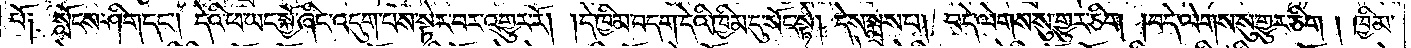པོ༑ སློངས་ཤིག་དང༌། དེའི་ཕ་ཡང་སྐྱོ་ཞིང་འདུག་པས་སྟེར་བར་འགྱུར་རོ། །དེ་ཁྱིམ་བདག་དེའི་ཁྱིམ་དུ་སོང་སྟེ། དེས་སྨྲས་པ། བདེ་ལེགས་སུ་གྱུར་ཅིག །བདེ་ལེགས་སུ་གྱུར་ཅིག །ཁྱིམ་
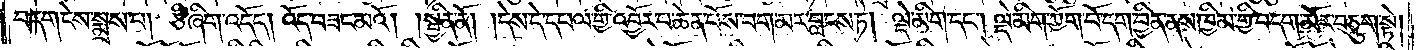བདག་དེས་སྨྲས་པ། ཅི་ཞིག་འདོད། འོད་བཟང་མའོ། །སྦྱིན་ནོ། །དེས་དེ་དཔལ་གྱི་འབྱོར་པ་ཆེན་པོས་བག་མར་བླངས་ཏེ། ལྡེ་མིག་དང༌། ལྡེ་མིག་ཀྱོག་པོ་དག་བྱིན་ནས་ཁྱིམ་གྱི་བདག་མོར་བཅུག་སྟེ།
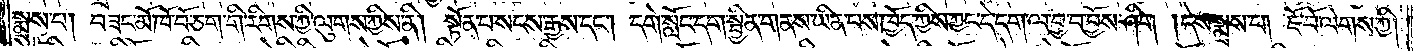སྨྲས་པ། བཟང་མོ་ཁོ་བོ་ཅག་གི་རིགས་ཀྱི་ལུགས་ཀྱིས་ནི། སྟོན་པ་སངས་རྒྱས་དང༌། དགེ་སློང་དག་སྦྱིན་གནས་ཡིན་པས་ཁྱོད་ཀྱིས་ཀྱང་དེ་དག་ལ་བྱ་བ་བྱོས་ཤིག །དེས་སྨྲས་པ། ཇོ་བོ་ལེགས་ཀྱི།
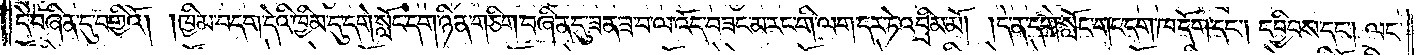དེ་བཞིན་དུ་བགྱིའོ། །ཁྱིམ་བདག་དེའི་ཁྱིམ་དུ་དགེ་སློང་དག་ཉིན་གཅིག་བཞིན་དུ་ཟན་ཟ་བ་ལ་འོད་བཟང་མ་རང་གི་ལག་དར་ཏེ་འབྲིམ་མོ། །དེ་ན་དགེ་སློང་གང་དག་ཁ་དོག་དང༌། དབྱིབས་དང༌། ལང་
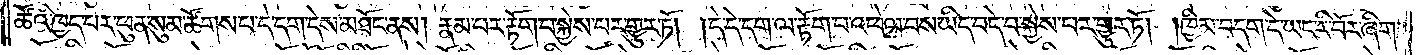ཚོའི་ཁྱད་པར་ཕུན་སུམ་ཚོགས་པ་དེ་དག་དེས་མཐོང་ནས། རྣམ་པར་རྟོག་པ་སྐྱེས་པར་གྱུར་ཏོ། །དེ་དེ་དག་ལ་རྟོག་པ་འཕེལ་བས་ཡིད་བདེ་བ་སྐྱེས་པར་གྱུར་ཏོ། །ཁྱིམ་བདག་དེ་ཡང་རི་བོར་ཞིག་
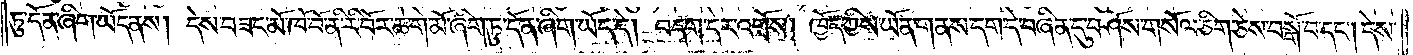ཏུ་དོན་ཞིག་ཡོད་ནས། དེས་བཟང་མོ་ཁོ་བོ་ནི་རི་བོར་ཆེ་གེ་མོ་ཞིག་ཏུ་དོན་ཞིག་ཡོད་དེ། བདག་དེར་འགྲོས། ཁྱོད་ཀྱིས་ཡོན་གནས་དག་དེ་བཞིན་དུ་བཤོས་གསོལ་ཅིག་ཅེས་བསྒོ་བ་དང༌། དེས་
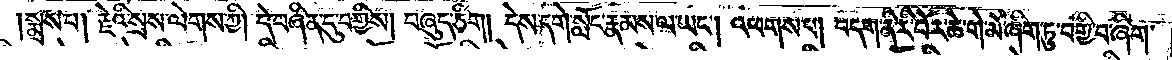སྨྲས་པ། རྗེའི་སྲས་ལེགས་ཀྱི། དེ་བཞིན་དུ་བགྱིས། བཞུད་ཅིག །དེས་དགེ་སློང་རྣམས་ལ་ཡང༌། འཕགས་པ། བདག་ནི་རི་བོར་ཆེ་གེ་མོ་ཞིག་ཏུ་བགྱི་བ་ཞིག་
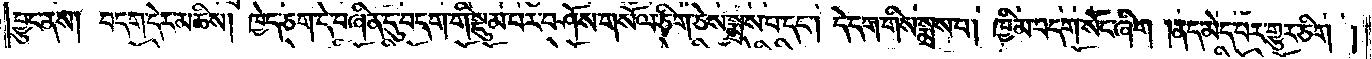བྱུང་ནས། བདག་དེར་མཆིས། ཁྱེད་ཅག་དེ་བཞིན་དུ་བདག་གི་སྡུམ་པར་བཤོས་གསོལ་ཅིག་ཅེས་སྨྲས་པ་དང༌། དེ་དག་གིས་སྨྲས་པ། ཁྱིམ་བདག་སོང་ཞིག །ནད་མེད་པར་གྱུར་ཅིག །
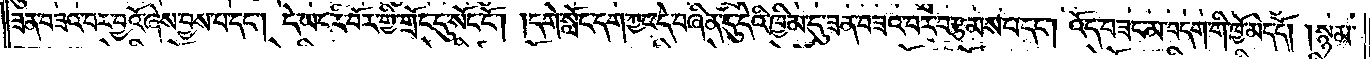ཟན་བཟའ་བར་བྱའོ་ཞེས་བྱས་པ་དང༌། དེ་ཡང་རི་བོར་གྱི་གྲོང་དུ་སོང་ངོ༌། །དགེ་སློང་དག་ཀྱང་དེ་བཞིན་དུ་དེའི་ཁྱིམ་དུ་ཟན་བཟའ་བར་བརྩམས་པ་དང༌། འོད་བཟང་མ་བདག་གི་ཁྱོ་མེད་དོ། །སྙམ་
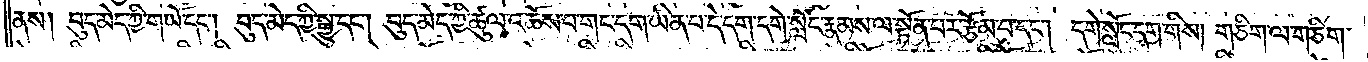ནས། བུད་མེད་ཀྱི་གཡོ་དང༌། བུད་མེད་ཀྱི་སྒྱུ་དང༌། བུད་མེད་ཀྱི་ཚུལ་འཆོས་པ་གང་དག་ཡིན་པ་དེ་དག་དགེ་སློང་རྣམས་ལ་སྟོན་པར་རྩོམ་པ་དང༌། དགེ་སློང་དག་གིས། གཅིག་ལ་གཅིག་
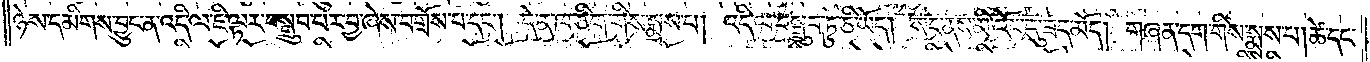ཉེས་དམིགས་བྱུང་ན་འདི་ལ་ཇི་ལྟར་བསྒྲུབ་པར་བྱ་ཞེས་བགྲོས་པ་དང༌། དེ་ན་ཁ་ཅིག་གིས་སྨྲས་པ། འདི་ལ་བསྒྲུབ་ཏུ་ཅི་ཡོད། སང་ནས་མི་འོང་དུ་ཟད་མོད། གཞན་དག་གིས་སྨྲས་པ། ཚེ་དང་
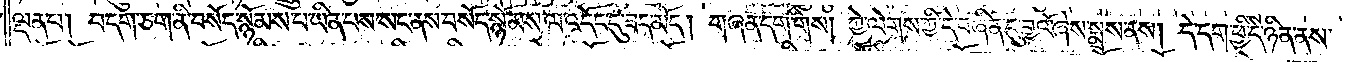ལྡན་པ། བདག་ཅག་ནི་བསོད་སྙོམས་པ་ཡིན་པས་སང་ནས་བསོད་སྙོམས་ལ་འདོང་དུ་ཟད་མོད། གཞན་དག་གིས། ཀྱེ་ལེགས་ཀྱི་དེ་བཞིན་དུ་བྱའོ་ཞེས་སྨྲས་ན། དེ་དག་ཕྱི་དེ་ཉིན་ནས་
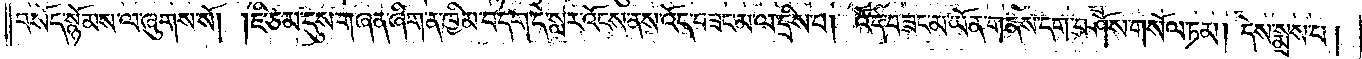བསོད་སྙོམས་ལ་ཞུགས་སོ། །ཇི་ཙམ་དུས་གཞན་ཞིག་ན་ཁྱིམ་བདག་དེ་སླར་འོངས་ནས་འོད་བཟང་མ་ལ་དྲིས་པ། འོད་བཟང་མ་ཡོན་གནས་དག་བཤོས་གསོལ་ཏམ། དེས་སྨྲས་པ།
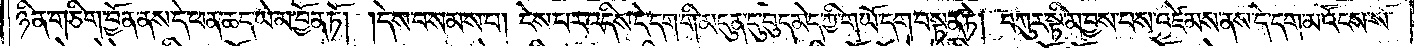ཉིན་གཅིག་བྱོན་ནས་དེ་ཕན་ཆད་ཡེ་མ་བྱོན་ཏོ། །དེས་བསམས་པ། ངེས་པར་འདིས་དེ་དག་གི་མདུན་དུ་བུད་མེད་ཀྱི་གཡོ་དག་བསྟན་ཏེ། བཀུར་སྟི་མ་བྱས་པས་འཛེམས་ནས་དེ་དག་མ་འོངས་སོ་
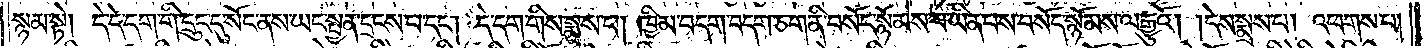སྙམ་སྟེ། དེ་དེ་དག་གི་དྲུང་དུ་སོང་ནས་ཡང་སྤྱན་དྲངས་པ་དང༌། དེ་དག་གིས་སྨྲས་པ། ཁྱིམ་བདག་བདག་ཅག་ནི་བསོད་སྙོམས་པ་ཡིན་པས་བསོད་སྙོམས་ལ་རྒྱུའོ། །དེས་སྨྲས་པ། འཕགས་པ་
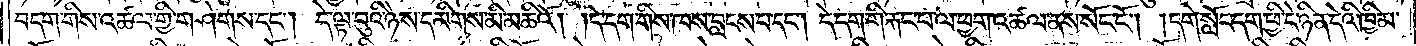བདག་གིས་འཚལ་གྱི་གཤེགས་དང༌། དེ་ལྟ་བུའི་ཉེས་དམིགས་མི་མཆིའོ། །དེ་དག་གིས་ཁས་བླངས་པ་དང༌། དེ་དག་གི་རྐང་པ་ལ་ཕྱག་འཚལ་ནས་སོང་ངོ༌། །དགེ་སློང་དག་ཕྱི་དེ་ཉིན་དེའི་ཁྱིམ་
